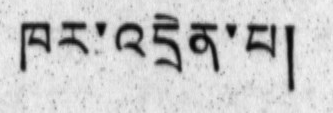ཁར་འདྲེན་པ།
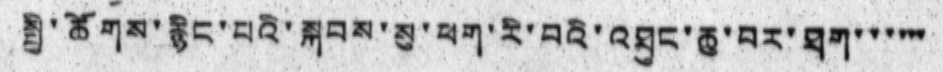སྤྱི་ཚོགས་རྙིང་པའི་སྐབས་སུ་ཕག་རི་བའི་འཐུང་ཆུ་བར་ཐག་་་་་་
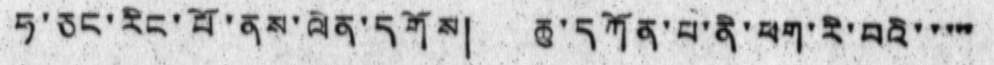ཧ་ཅང་རིང་པོ་ནས་ལེན་དགོས། ཆུ་དཀོན་པ་ནི་ཕག་རི་བའི་་་་་
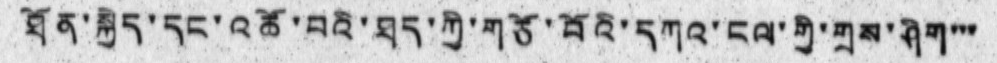ཐོན་སྐྱེད་དང་འཚོ་བའི་ཐད་ཀྱི་གཙོ་བོའི་དཀའ་ངལ་གྱི་གྲས་ཤིག་་་
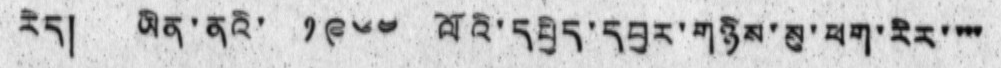རེད། ཡིན་ནའི་ ༡༩༦༤ ལོའི་དཔྱིད་དབྱར་གཉིས་སུ་ཕག་རིར་་་་
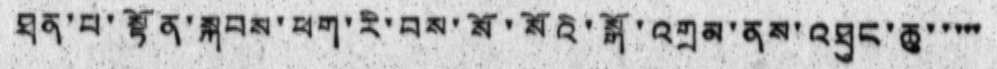ཐན་པ་སྟོན་སྐབས་ཕག་རི་བས་སོ་སོའི་སྒོ་འགྲམ་ནས་འཐུང་ཆུ་་་་་
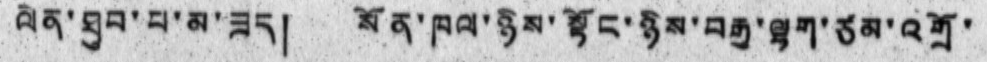ལེན་ཐུབ་པ་མ་ཟད། སོན་ཁལ་ཉིས་སྟོང་ཉིས་བརྒྱ་ལྷག་ཙམ་འགྲོ་
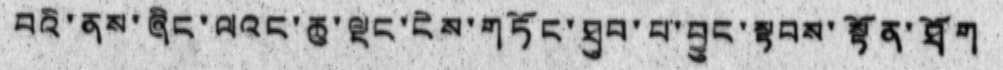བའི་ནས་ཞིང་ལའང་ཆུ་ལྡང་ངེས་གཏོང་ཐུབ་པ་བྱུང་སྟབས་སྟོན་ཐོག
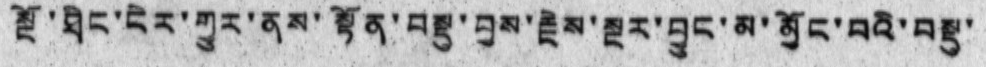སྔོ་ཐིང་ངེར་གྱུར་ནས་སྟོན་བསྡུ་བྱས་རྗེས་སྔར་བྱུང་མ་མྱོང་བའི་བསྡུ་
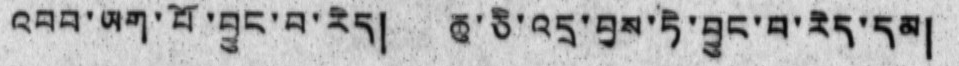འབབ་ཡག་པོ་བྱུང་བ་རེད། ཆུ་ཅི་འདྲ་བྱས་ཏེ་བྱུང་བ་རེད་དམ།
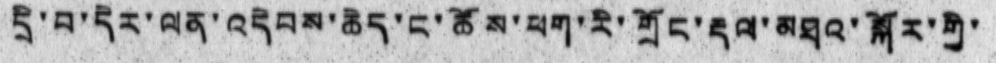དྲི་བ་དེར་ལན་འདེབས་ཆེད་ང་ཚོས་ཕག་རི་གྲོང་རྡལ་མཐའ་སྐོར་གྱི་
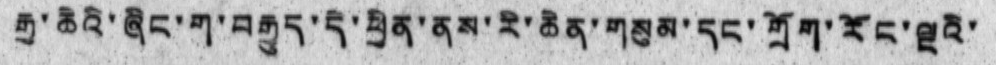རྒྱ་ཆེའི་ཞིང་ག་བརྒྱུད་དེ་ཕྱིན་ནས་རི་ཆེན་གསུམ་དང་གྲོག་རོང་ལྔའི་
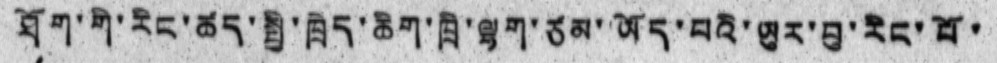ཐོག་གི་རིང་ཚད་སྤྱི་ཁྲེད་ཆིག་ཁྲི་ལྷག་ཙམ་ཡོད་པའི་ཡུར་བུ་རིང་པོ་
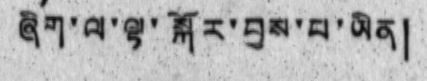ཞིག་ལ་ལྟ་སྐོར་བྱས་པ་ཡིན།
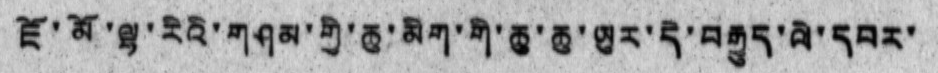ཇོ་མོ་ལྷ་རིའི་གཤམ་གྱི་ཆུ་མིག་གི་ཆུ་ཆུ་ཡུར་དེ་བརྒྱུད་ལེ་དབར་
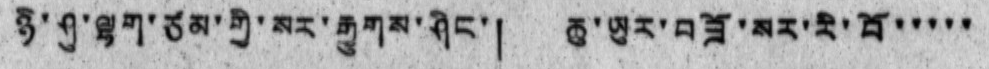ཉི་ཤུ་ལྷག་ཙམ་གྱི་སར་རྒྱུགས་ཤིང་། ཆུ་ཡུར་བཟོ་སར་རི་བོ་་་་་
